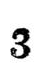3
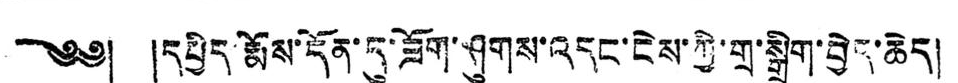༄༅། །དཔྱིད་རྨོས་དོན་དུ་ཟོག་ཤུགས་འདང་ངེས་ཀྱི་གྲ་སྒྲིག་བྱེད་ཆེད།
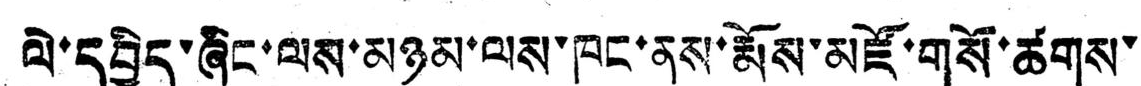ལེ་དབྱིད་ཞིང་ལས་མཉམ་ལས་ཁང་ནས་རྨོས་མཛོ་གསོ་ཚགས་
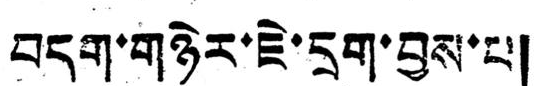བདག་གཉེར་ཇེ་དྲག་བྱས་པ།
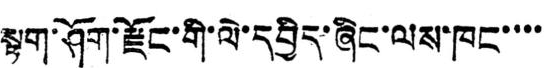སྟག་ཤོག་རྫོང་གི་ལེ་དབྱིད་ཞིང་ལས་ཁང་་་་
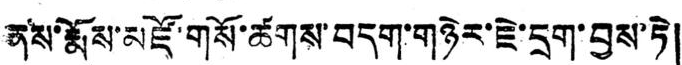ནས་རྨོས་མཛོ་གསོ་ཚགས་བདག་གཉེར་ཇེ་དྲག་བྱས་ཏེ།
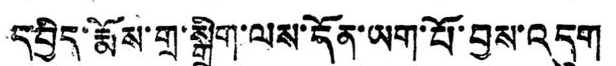དཔྱིད་རྨོས་གྲ་སྒྲིག་ལས་དོན་ཡག་པོ་བྱས་འདུག
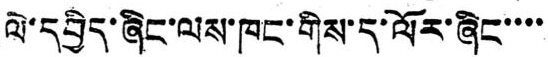ལེ་དབྱིད་ཞིང་ལས་ཁང་གིས་ད་ལོར་ཞིང་་་་
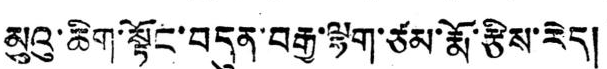མུའུ་ཆིག་སྟོང་བདུན་བརྒྱ་ལྷག་ཙམ་རྨོ་རྩིས་རེད།
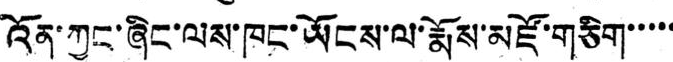འོན་ཀྱང་ཞིང་ལས་ཁང་ཡོངས་ལ་རྨོས་མཛོ་གཅིག་་་་་
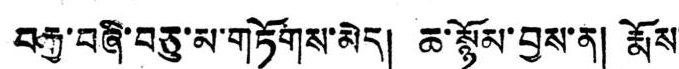བརྒྱ་བཞི་བཅུ་མ་གཏོགས་མེད། ཆ་སྙོམ་བྱས་ན། རྨོས་
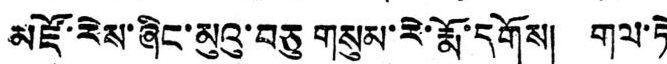མཛོ་རེས་ཞིང་མུའུ་བཅུ གསུམ་རེ་རྨོ་དགོས། གལ་ཏེ་
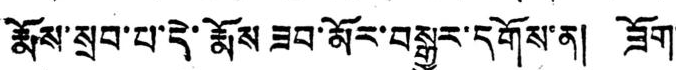རྨོས་སྲབ་པ་དེ་རྨོས ཟབ་མོར་བསྒྱུར་དགོས་ན། ཟོག་
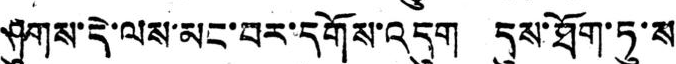ཤུགས་དེ་ལས་མང་བར་དགོས་འདུག དུས་ཐོག་ཏུ་ས
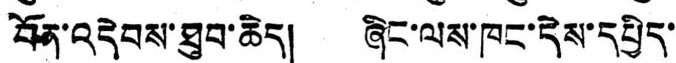བོན་འདེབས་ཐུབ་ཆེད། ཞིང་ལས་ཁང་དེས་དཔྱིད་་
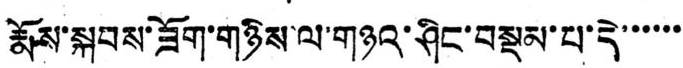རྨོས་སྐབས་ཟོག་གཉིས་ལ་གཉའ་ཤིང་བསྡམ་པ་དེ་་་་་
